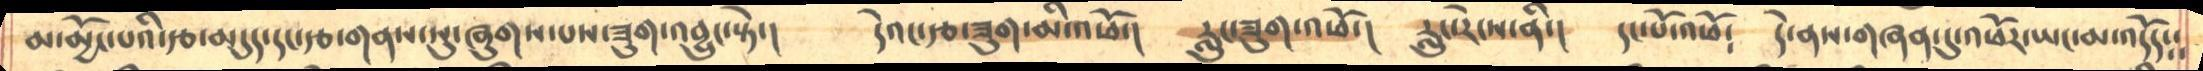མ་མྱོང་པའི་རྩ་མདུད་དང་རྩ་གནས་སུ་ཞུགས་པས་ཟུག་འབྱུང་སྟེ་།    དེའང་རྩ་ཟུག་མི་འཕོ་།    རླུང་ཟུག་འཕོ་།   རླུང་རེངས་ནི་།   དང་པོ་འཕོ༴   དེ་ནས་གཞན་དུ་འཕོར་ཡང་མ་འདོད༴༴
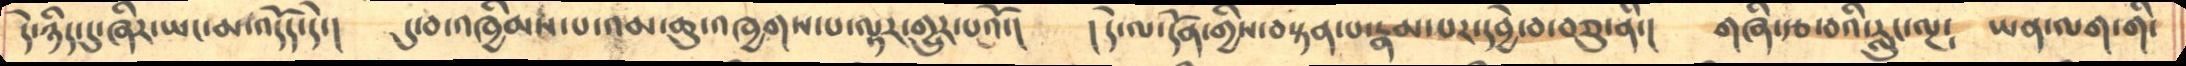དེ་ཉིད་དུ་ཞིར་ཡང་མ་འདོད་དེ་།    དུ་བ་འཁྱིམས་པ་འམ་ཆུ་འཁྱགས་པ་ལྟར་གྱུར་པའོ་།    །དེ་ལ་དོན་གྱིས་བསྟན་པ་རྣམ་པར་དབྱེ་བ་བཅུ་ནི་།   གཞི་རྩ་བའི་རླུང་ལྔ༴   ཡན་ལག་གི་
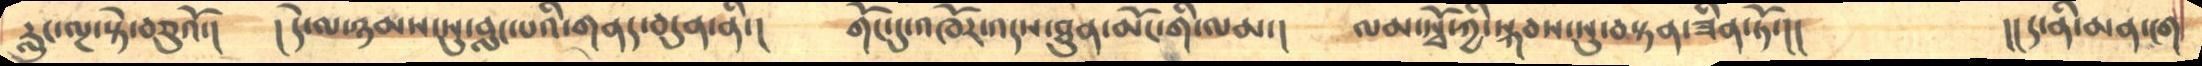རླུང་ལྔ་སྟེ་བཅུའོ་།    །དེ་ལ་ཉམས་སུ་བླང་པའི་གནད་བདུན་ནི་།    གོང་དུ་འཁོར་འདས་ཐུན་མོང་གི་ལམ་།   ལམ་སྭོ་ཀྱི་སྐབས་སུ་བསྟན་ཟིན་ཏོ་།།     །།ད་ནི་མན་ངག
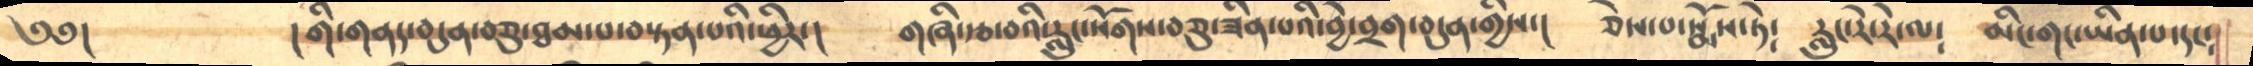༄༅།           །གི་གནད་བདུན་བཅུ་ཐམ་པ་བསྟན་པའི་ཕྱིར་།     གཞི་རྩ་བའི་རླུང་སོགས་བཅུ་ཟིན་པའི་བྱེ་བྲག་བདུན་གྱིས་།    ཅེས་པ་སྨོས་ཏེ༴   རླུང་རེ་རེ་ལ༴   མིང་གང་ཡིན་པ་དང༴
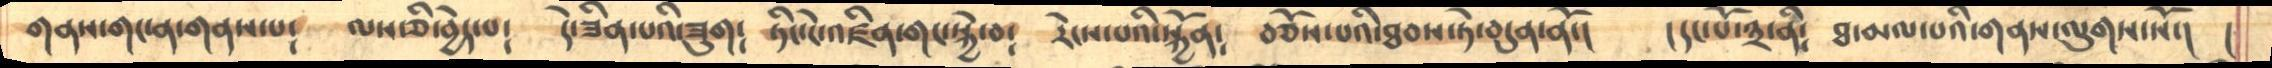གནས་གང་ན་གནས་པ༴    ལས་ཅི་བྱེད་པ༴   དེ་ཟིན་པའི་ཟུག༴   ཏིང་ངེ་འཛིན་གང་སྐྱེ་བ༴    རེངས་པའི་སྐྱོན༴   བཅོས་པའི་ཐབས་ཏེ་བདུན་ནོ་།   །དང་པོ་༣་ནི༴   ཐ་མལ་པའི་གནས་ལུགས་སོ་།  །
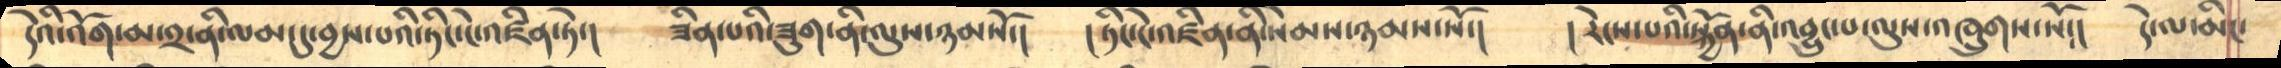དེའི་འོག་མ་༢་ནི་ལམ་དུ་བྱས་པའི་ཏིང་ངེ་འཛིན་ཏེ་།     ཟིན་པའི་ཟུག་ནི་ལུས་ཉམསོ་།    །ཏིང་ངེ་འཛིན་ནི་སེམས་ཉམས་སོ་།   །རེངས་པའི་སྐྱོན་ནི་འབྱུང་པ་ལུས་འཁྲུགས་སོ།།   དེ་ལ་མིང་
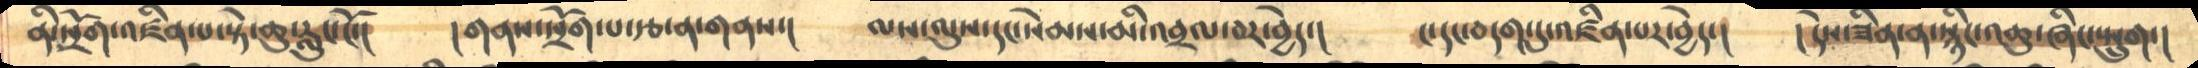ནི་སྲོག་འཛིན་པ་སྟེ་ཆུ་རླུང་ངོ་།      །གནས་སྲོག་པ་རྩ་ན་གནས་།     ལས་ལུས་དང་སེམས་མི་འབྲལ་བར་བྱེད་།     ང་དང་བདག་དུ་འཛིན་པར་བྱེད་།    །དེས་ཟིན་ན་སྙིང་འཆུ་ཞིང་སྤྲུག་།
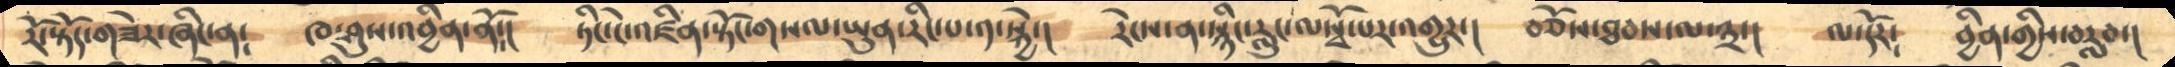རོ་སྟོད་གཟེར་ཞིང་ན༴  ཁ་ཤུས་འབྱིན་ནོ༴།   ཏིང་ངེ་འཛིན་སྟོང་གསལ་ཡུན་རིང་པ་༡་སྐྱེ་།    རེངས་ན་སྙིང་རླུང་ལསྭོ་པར་འགྱུར་།   བཅོས་ཐབས་ལ་༣་།    ལ་དོར༴    བྱིན་གྱིས་བརླབ་།
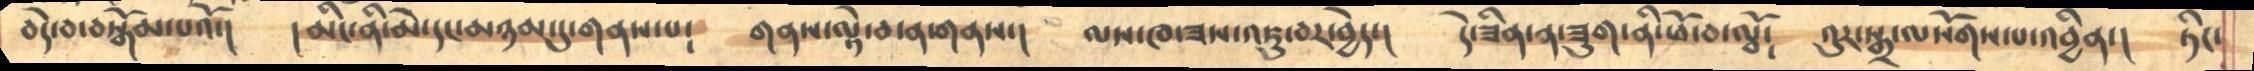བདེ་བ་བསྒོམ་པའོ་།     །མིང་ནི་མེ་དང་མཉམ་དུ་གནས་པ༴   གནས་ལྟེ་བ་ན་གནས་།    ལས་ཁ་ཟས་འཇུ་བར་བྱེད་།   དེ་ཟིན་ན་ཟུག་ནི་ཕོ་བ་ལྦོ༴    འུར་སྒྲ་ལསོགས་པ་འབྱིན་།  ཏིང་
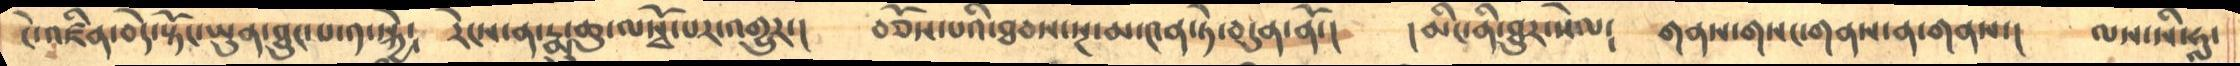ངེ་འཛིན་བདེ་སྟོང་ཡུན་ཐུང་པ་༡་སྐྱེ༴    རེངས་ན་རྨུ་ཆུ་ལསྭོ་པར་འགྱུར་།   བཅོས་པའི་ཐབས་སྔ་མ་༤ན་ཏེ་བདུན་ནོ་།   །མིང་ནི་ཐུར་སེལ༴   གནས་གསང་གནས་ན་གནས་།   ལས་སི་ཧླ་
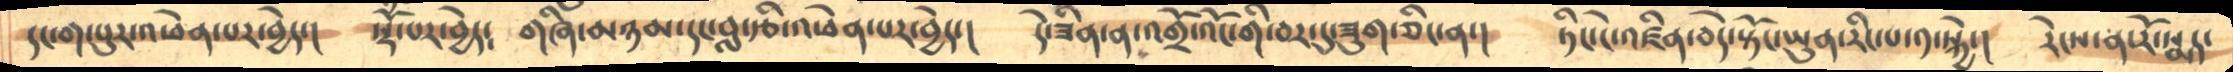དང་ག་པུར་འཕེན་པར་བྱེད་།   སྡོཾ་པར་བྱེད༴    གཞི་མཉམ་དང་བླ་རྩི་འཕེན་པར་བྱེད་།    དེ་ཟིན་ན་འགྲོ་འོང་གི་བར་དུ་ཟུག་ཅིང་ན་།   ཏིང་ངེ་འཛིན་བདེ་སྟོང་ཡུན་རིང་པ་༡་སྐྱེ་།   རེངས་ན་རོ་སྨད་
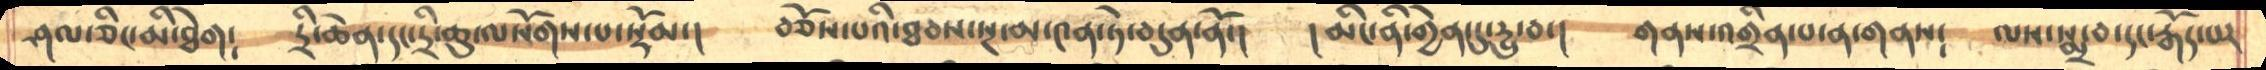ཤལ་ཅིང་མི་ཐེག༴    དྲི་ཆེན་དང་དྲི་ཆུ་ལསོགས་པ་སྡོམ་།     བཅོས་པའི་ཐབས་སྔ་མ་༤ན་ཏེ་བདུན་ནོ་།     །མིང་ནི་གྱེན་དུ་དྱུ་བ་།    གནས་འགྲིན་པ་ན་གནས༴   ལས་སྨྲ་བ་དང་རྒོད་པར
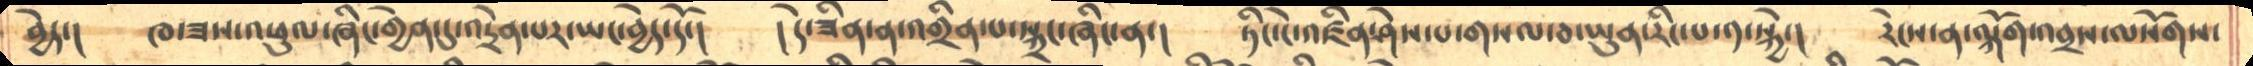བྱེད་།      ཁ་ཟས་འཕུལ་ཞིང་གྱེན་དུ་འདྲེན་པར་ཡང་བྱེད་དོ་།    །དེ་ཟིན་ན་འགྲིན་པ་སྐྲང་ཞིང་ན་།    ཏིང་ངེ་འཛིན་ཤེས་པ་གསལ་བ་ཡུན་རིང་པ་༡་སྐྱེ་།   རེངས་ན་ལྐོག་འབྲས་ལསོགས་
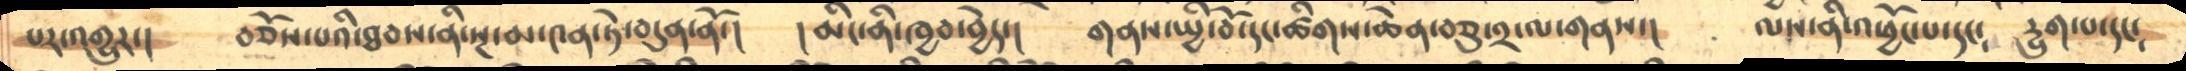པར་འགྱུར་།     བཅོས་པའི་ཐབས་ནི་སྔ་མ་༤ན་ཏེ་བདུན་ནོ་།   །མིང་ནི་ཁྱབ་བྱེད་།   གནས་སྤྱི་བོ་དང་ཚིགས་ཆེན་བཅུ་༢་ལ་གནས་།   ལས་ནི་འཕྱོང་པ་དང༴  དྱུག་པ་དང༴
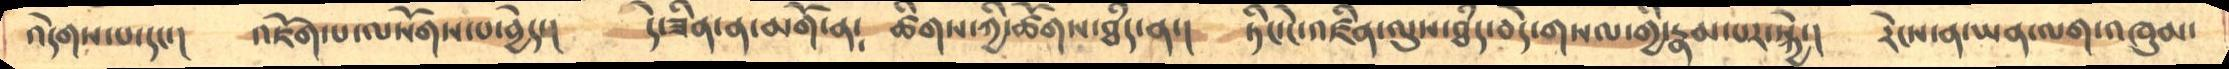འདེགས་པ་དང་།    འཇོག་པ་ལསོགས་པ་བྱེད་།    དེ་ཟིན་ན་མགོ་ན༴ ཚིགས་ཀྱི་ཚོགས་ཐཾད་ན་།    ཏིང་ངེ་འཛིན་ལུས་ཐཾད་བདེ་གསལ་གྱི་རྣམ་པར་སྐྱེ་།   རེངས་ན་ཡན་ལག་འཁུམ་
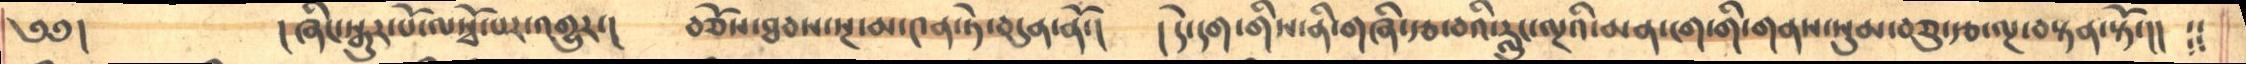༄༅།            །ཞིང་སྒུར་པོ་ལསྭོ་པར་འགྱུར་།    བཅོས་ཐབས་སྔ་མ་༤ན་ཏེ་བདུན་ནོ་།     །དེ་དག་གིས་ནི་གཞི་རྩ་བའི་རླུང་ལྔའི་མན་ངག་གི་གནས་སུམ་བཅུ་རྩ་ལྔ་བསྟན་སྟོ་།།   ༴༴
